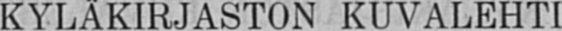KYLÄKIRJASTON KUVALEHTI
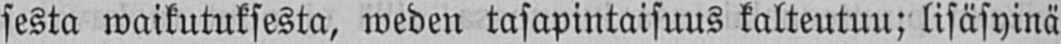sesta waikutuksesta, weden tasapintaisuus kalteutuu; lisäsyinä
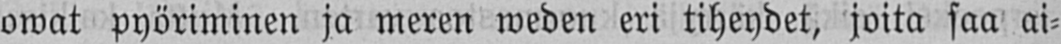owat pyöriminen ja meren meden eri tiheydet, joita saa ai-
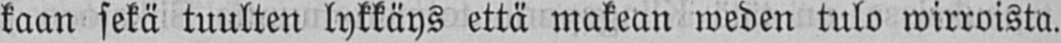kaan sekä tuulten lykkäys että makean weden tulo wirroista.
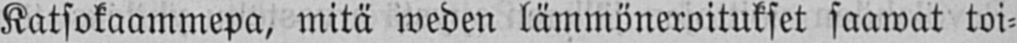Katsokaammepa, mitä weden lämmöneroitukset saawat toi-
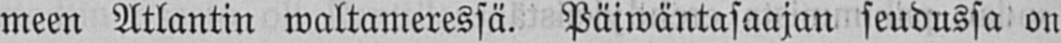meen Atlantin waltameressä. Päiwäntasaajan seudussa on
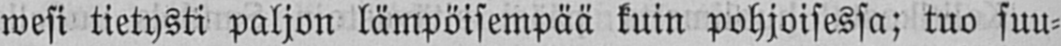wesi tietysti paljon lämpöisempää kuin pohjoisessa; tuo suu-
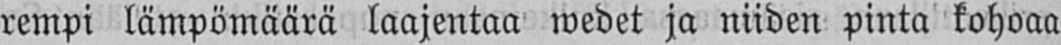rempi lämpömäärä laajentaa wedet ja niiden pinta kohoaa
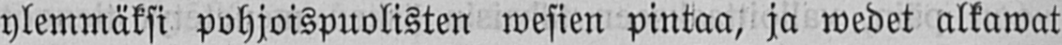ylemmäksi pohjoispuolisten wesien pintaa, ja wedet alkawat
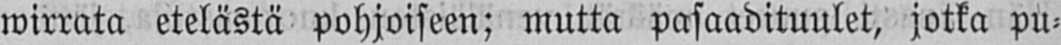wirrata etelästä pohjoiseen; mutta pasaadituulet, jotka pu-
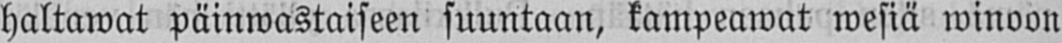haltawat päinwastaiseen suuntaan, kampeawat wesiä winoon
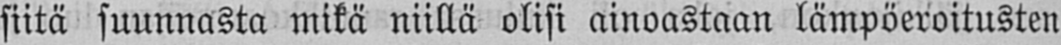siitä suunnasta mikä niillä olisi ainoastaan lämpöeroitusten
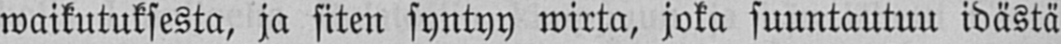waikutuksesta, ja siten syntyy wirta, joka suuntautuu idästä
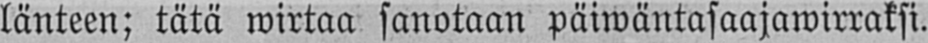länteen; tätä wirtaa sanotaan päiwäntasaajawirraksi.
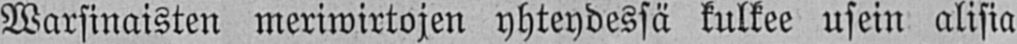Warsinaisten meriwirtojen yhteydessä kulkee usein alisia
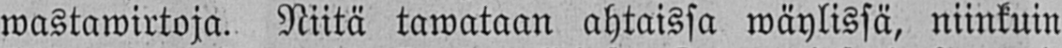wastawirtoja. Niitä tawataan ahtaissa wäylissä, niinkuin
